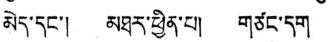མེད་དང་། མཐར་ཕྱིན་པ། གཙང་དག
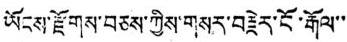ཡོངས་རྫོགས་བཅས་ཀྱིས་གསར་བརྗེར་ངོ་རྒོལ་་
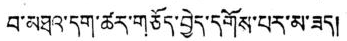བ་མཐའ་དག་ཚར་གཅོད་བྱེད་དགོས་པར་མ་ཟད།
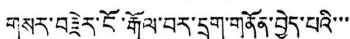གསར་བརྗེར་ངོ་རྒོལ་བར་དྲག་གནོན་བྱེད་པའི་་་
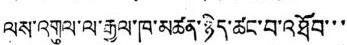ལས་འགུལ་ལ་རྒྱལ་ཁ་མཚན་ཉིད་ཚང་བ་འཐོབ་་་
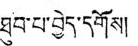ཐུབ་པ་བྱེད་དགོས།
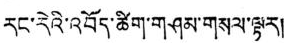རང་རེའི་འབོད་ཚིག་གཤམ་གསལ་ལྟར།
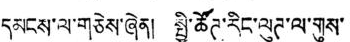དམངས་ལ་གཅེས་ཞེན། སྤྱི་ཚོཊ་རིང་ལུཊ་ལ་གུས་
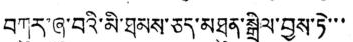བཀུར་ཞུ་བའི་མི་ཐམས་ཅད་མཐུན་སྒྲིལ་བྱས་ཏེ་་་
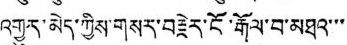འགྱུར་མེད་ཀྱིས་གསར་བརྗེར་ངོ་རྒོལ་བ་མཐའ་་་
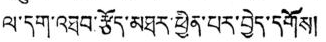ལ་དག་འཐབ་རྩོད་མཐར་ཕྱིན་པར་བྱེད་དགོས།
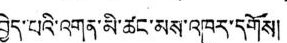བྱེད་པའི་འགན་མི་ཚང་མས་འཁུར་དགོས།
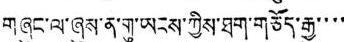གཞུང་ལ་ཞུས་ན་གུ་ཡངས་ཀྱིས་ཐག་གཅོད་རྒྱུ་་་་
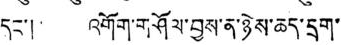དང་། འགོག་གཤོལ་བྱས་ན་ཉེས་ཆད་དྲག་
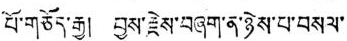པོ་གཅོད་རྒྱུ། བྱས་རྗེས་བཞག་ན་ཉེས་པ་བསལ་
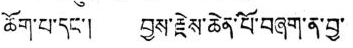ཆོག་པ་དང་། བྱས་རྗེས་ཆེན་པོ་བཞག་ན་བྱ་
